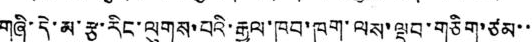གཞི་དེ་མ་རྩ་རིང་ལུགས་པའི་རྒྱལ་ཁབ་ཁག་ལས་སྡབ་གཅིག་ཙམ་་
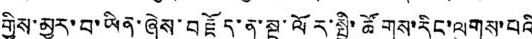གྱིས་མྱུར་བ་ཡིན་ཞེས་བརྗོད་ན་སྔ་ལོར་སྤྱི་ཚོགས་རིང་ལུགས་པའི
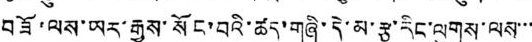བཟོ་ལས་ཡར་རྒྱས་སོང་བའི་ཚད་གཞི་དེ་མ་རྩ་རིང་ལུགས་ལས་་་
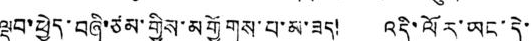ལྡབ་ཕྱེད་བཞི་ཙམ་གྱིས་མགྱོགས་པ་མ་ཟད། འདི་ལོར་ཡང་དེ་
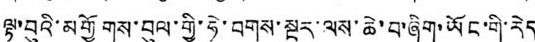ལྟ་བུའི་མགྱོགས་བུལ་གྱི་ཧེ་བགས་སྔར་ལས་ཆེ་བ་ཞིག་ཡོང་གི་རེད
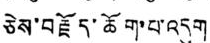ཅེས་བརྗོད་ཆོག་པ་འདུག
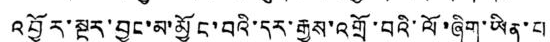འབྱོར་སྔར་བྱུང་མ་མྱོང་བའི་དར་རྒྱས་འགྲོ་བའི་ལོ་ཞིག་ཡིན་པ
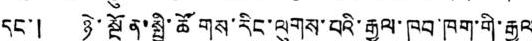དང་། ཉེ་སྔོན་སྤྱི་ཚོགས་རིང་ལུགས་པའི་རྒྱལ་ཁབ་ཁག་གི་རྒྱལ
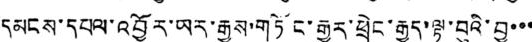དམངས་དཔལ་འབྱོར་ཡར་རྒྱས་གཏོང་རྒྱུར་ཕྲེང་རྒྱུད་ལྟ་བུའི་བྱ་་་
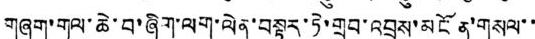གཞག་གལ་ཆེ་བ་ཞིག་ལག་ལེན་བསྟར་ཏེ་གྲུབ་འབྲས་མངོན་གསལ་་
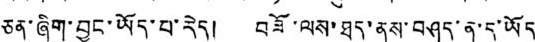ཅན་ཞིག་བྱུང་ཡོད་པ་རེད། བཟོ་ལས་ཐད་ནས་བཤད་ན་ད་ཡོད
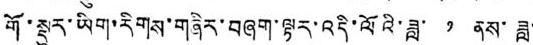གོ་སྡུར་ཡིག་རིགས་གཞིར་བཞག་ལྟར་འདི་ལོའི་ཟླ་ ༡ ནས་ཟླ་
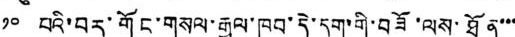༡༠ པའི་བར་གོང་གསལ་རྒྱལ་ཁབ་དེ་དག་གི་བཟོ་ལས་ཐོན་་་
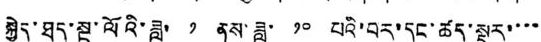སྐྱེད་ཐད་སྔ་ལོའི་ཟླ་ ༡ ནས་ཟླ་ ༡༠ པའི་བར་དང་ཚད་སྡུར་་་་
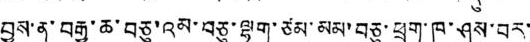བྱས་ན་བརྒྱ་ཆ་བཅུ་འམ་བཅུ་ལྷག་ཙམ་མམ་བཅུ་ཕྲག་ཁ་ཤས་བར་
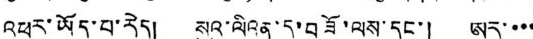འཕར་ཡོད་པ་རེད། སུའུ་ལིའན་དུ་བཟོ་ལས་དང་། ཨར་་་་
